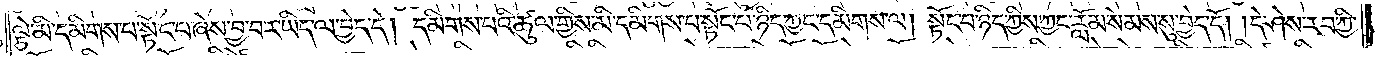ལྕེ་མི་དམིགས་པ་སྟོང་པ་ཞེས་བྱ་བར་ཡིད་ལ་བྱེད་དེ། དམིགས་པའི་ཚུལ་གྱིས་མི་དམིགས་པ་སྟོང་པ་ཉིད་ཀྱང་དམིགས་ལ། སྟོང་པ་ཉིད་ཀྱིས་ཀྱང་རློམ་སེམས་སུ་བྱེད་དོ། །དེ་ཤེས་རབ་ཀྱི་
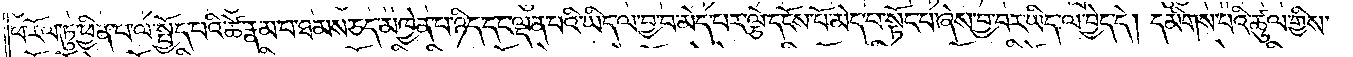ཕ་རོལ་ཏུ་ཕྱིན་པ་ལ་སྤྱོད་པའི་ཚེ་རྣམ་པ་ཐམས་ཅད་མཁྱེན་པ་ཉིད་དང་ལྡན་པའི་ཡིད་ལ་བྱ་བ་མེད་པར་ལྕེ་དངོས་པོ་མེད་པ་སྟོང་པ་ཞེས་བྱ་བར་ཡིད་ལ་བྱེད་དེ། དམིགས་པའི་ཚུལ་གྱིས་
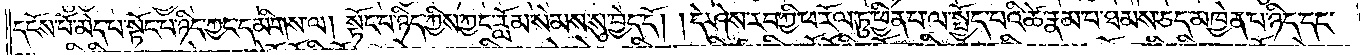དངོས་པོ་མེད་པ་སྟོང་པ་ཉིད་ཀྱང་དམིགས་ལ། སྟོང་པ་ཉིད་ཀྱིས་ཀྱང་རློམ་སེམས་སུ་བྱེད་དོ། །དེ་ཤེས་རབ་ཀྱི་ཕ་རོལ་ཏུ་ཕྱིན་པ་ལ་སྤྱོད་པའི་ཚེ་རྣམ་པ་ཐམས་ཅད་མཁྱེན་པ་ཉིད་དང་
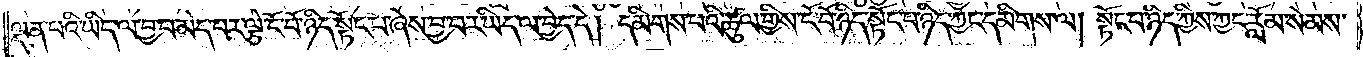ལྡན་པའི་ཡིད་ལ་བྱ་བ་མེད་པར་ལྕེ་ངོ་བོ་ཉིད་སྟོང་པ་ཞེས་བྱ་བར་ཡིད་ལ་བྱེད་དེ། དམིགས་པའི་ཚུལ་གྱིས་ངོ་བོ་ཉིད་སྟོང་པ་ཉིད་ཀྱང་དམིགས་ལ། སྟོང་པ་ཉིད་ཀྱིས་ཀྱང་རློམ་སེམས་
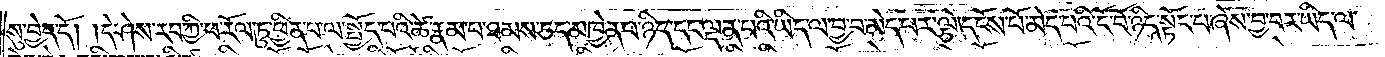སུ་བྱེད་དོ། །དེ་ཤེས་རབ་ཀྱི་ཕ་རོལ་ཏུ་ཕྱིན་པ་ལ་སྤྱོད་པའི་ཚེ་རྣམ་པ་ཐམས་ཅད་མཁྱེན་པ་ཉིད་དང་ལྡན་པའི་ཡིད་ལ་བྱ་བ་མེད་པར་ལྕེ་དངོས་པོ་མེད་པའི་ངོ་བོ་ཉིད་སྟོང་པ་ཞེས་བྱ་བར་ཡིད་ལ་
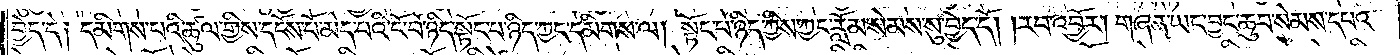བྱེད་དེ༑ དམིགས་པའི་ཚུལ་གྱིས་དངོས་པོ་མེད་པའི་ངོ་བོ་ཉིད་སྟོང་པ་ཉིད་ཀྱང་དམིགས་ལ། སྟོང་པ་ཉིད་ཀྱིས་ཀྱང་རློམ་སེམས་སུ་བྱེད་དོ། །རབ་འབྱོར། གཞན་ཡང་བྱང་ཆུབ་སེམས་དཔའ་
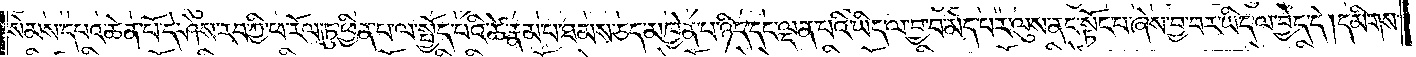སེམས་དཔའ་ཆེན་པོ་དེ་ཤེས་རབ་ཀྱི་ཕ་རོལ་ཏུ་ཕྱིན་པ་ལ་སྤྱོད་པའི་ཚེ་རྣམ་པ་ཐམས་ཅད་མཁྱེན་པ་ཉིད་དང་ལྡན་པའི་ཡིད་ལ་བྱ་བ་མེད་པར་ལུས་ནང་སྟོང་པ་ཞེས་བྱ་བར་ཡིད་ལ་བྱེད་དེ། དམིགས་
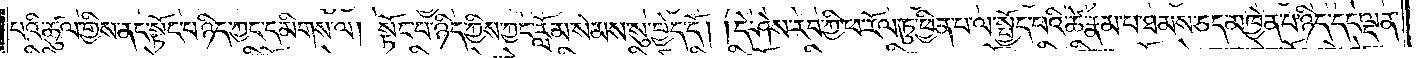པའི་ཚུལ་གྱིས་ནང་སྟོང་པ་ཉིད་ཀྱང་དམིགས་ལ། སྟོང་པ་ཉིད་ཀྱིས་ཀྱང་རློམ་སེམས་སུ་བྱེད་དོ། །དེ་ཤེས་རབ་ཀྱི་ཕ་རོལ་ཏུ་ཕྱིན་པ་ལ་སྤྱོད་པའི་ཚེ་རྣམ་པ་ཐམས་ཅད་མཁྱེན་པ་ཉིད་དང་ལྡན་
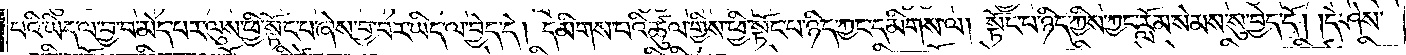པའི་ཡིད་ལ་བྱ་བ་མེད་པར་ལུས་ཕྱི་སྟོང་པ་ཞེས་བྱ་བར་ཡིད་ལ་བྱེད་དེ། དམིགས་པའི་ཚུལ་གྱིས་ཕྱི་སྟོང་པ་ཉིད་ཀྱང་དམིགས་ལ། སྟོང་པ་ཉིད་ཀྱིས་ཀྱང་རློམ་སེམས་སུ་བྱེད་དོ། །དེ་ཤེས་
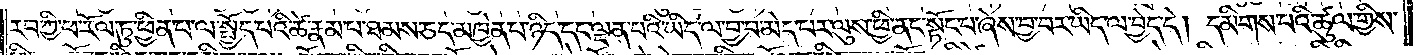རབ་ཀྱི་ཕ་རོལ་ཏུ་ཕྱིན་པ་ལ་སྤྱོད་པའི་ཚེ་རྣམ་པ་ཐམས་ཅད་མཁྱེན་པ་ཉིད་དང་ལྡན་པའི་ཡིད་ལ་བྱ་བ་མེད་པར་ལུས་ཕྱི་ནང་སྟོང་པ་ཞེས་བྱ་བར་ཡིད་ལ་བྱེད་དེ། དམིགས་པའི་ཚུལ་གྱིས་
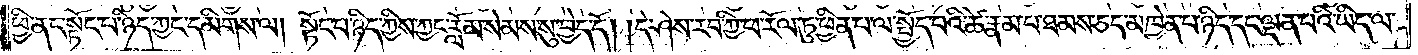ཕྱི་ནང་སྟོང་པ་ཉིད་ཀྱང་དམིགས་ལ། སྟོང་པ་ཉིད་ཀྱིས་ཀྱང་རློམ་སེམས་སུ་བྱེད་དོ། །དེ་ཤེས་རབ་ཀྱི་ཕ་རོལ་ཏུ་ཕྱིན་པ་ལ་སྤྱོད་པའི་ཚེ་རྣམ་པ་ཐམས་ཅད་མཁྱེན་པ་ཉིད་དང་ལྡན་པའི་ཡིད་ལ་
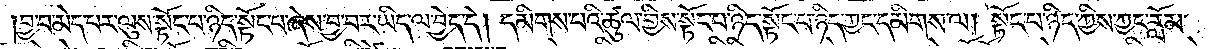བྱ་བ་མེད་པར་ལུས་སྟོང་པ་ཉིད་སྟོང་པ་ཞེས་བྱ་བར་ཡིད་ལ་བྱེད་དེ། དམིགས་པའི་ཚུལ་གྱིས་སྟོང་པ་ཉིད་སྟོང་པ་ཉིད་ཀྱང་དམིགས་ལ། སྟོང་པ་ཉིད་ཀྱིས་ཀྱང་རློམ་
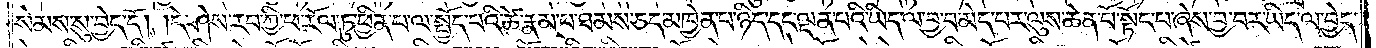སེམས་སུ་བྱེད་དོ། །དེ་ཤེས་རབ་ཀྱི་ཕ་རོལ་ཏུ་ཕྱིན་པ་ལ་སྤྱོད་པའི་ཚེ་རྣམ་པ་ཐམས་ཅད་མཁྱེན་པ་ཉིད་དང་ལྡན་པའི་ཡིད་ལ་བྱ་བ་མེད་པར་ལུས་ཆེན་པོ་སྟོང་པ་ཞེས་བྱ་བར་ཡིད་ལ་བྱེད་
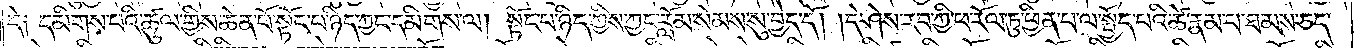དེ༑ དམིགས་པའི་ཚུལ་གྱིས་ཆེན་པོ་སྟོང་པ་ཉིད་ཀྱང་དམིགས་ལ། སྟོང་པ་ཉིད་ཀྱིས་ཀྱང་རློམ་སེམས་སུ་བྱེད་དོ། །དེ་ཤེས་རབ་ཀྱི་ཕ་རོལ་ཏུ་ཕྱིན་པ་ལ་སྤྱོད་པའི་ཚེ་རྣམ་པ་ཐམས་ཅད་
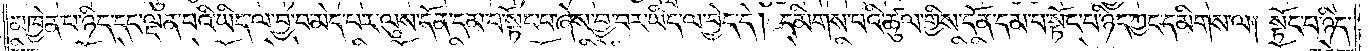མཁྱེན་པ་ཉིད་དང་ལྡན་པའི་ཡིད་ལ་བྱ་བ་མེད་པར་ལུས་དོན་དམ་པ་སྟོང་པ་ཞེས་བྱ་བར་ཡིད་ལ་བྱེད་དེ། དམིགས་པའི་ཚུལ་གྱིས་དོན་དམ་པ་སྟོང་པ་ཉིད་ཀྱང་དམིགས་ལ། སྟོང་པ་ཉིད་
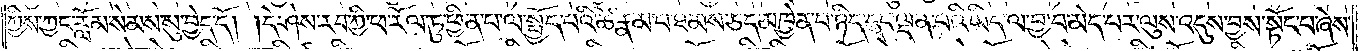ཀྱིས་ཀྱང་རློམ་སེམས་སུ་བྱེད་དོ། །དེ་ཤེས་རབ་ཀྱི་ཕ་རོལ་ཏུ་ཕྱིན་པ་ལ་སྤྱོད་པའི་ཚེ་རྣམ་པ་ཐམས་ཅད་མཁྱེན་པ་ཉིད་དང་ལྡན་པའི་ཡིད་ལ་བྱ་བ་མེད་པར་ལུས་འདུས་བྱས་སྟོང་པ་ཞེས་
